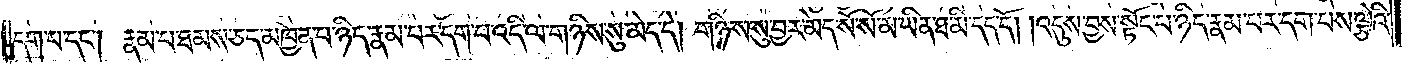དག་པ་དང༌། རྣམ་པ་ཐམས་ཅད་མཁྱེན་པ་ཉིད་རྣམ་པར་དག་པ་འདི་ལ་གཉིས་སུ་མེད་དེ། གཉིས་སུ་བྱར་མེད་སོ་སོ་མ་ཡིན་ཐ་མི་དད་དོ། །འདུས་བྱས་སྟོང་པ་ཉིད་རྣམ་པར་དག་པས་ལྕེའི་
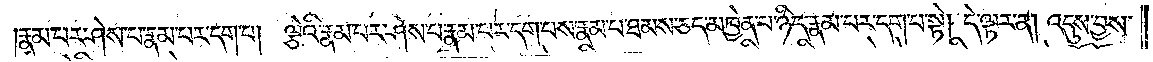རྣམ་པར་ཤེས་པ་རྣམ་པར་དག་པ། ལྕེའི་རྣམ་པར་ཤེས་པ་རྣམ་པར་དག་པས་རྣམ་པ་ཐམས་ཅད་མཁྱེན་པ་ཉིད་རྣམ་པར་དག་པ་སྟེ། དེ་ལྟར་ན། འདུས་བྱས་
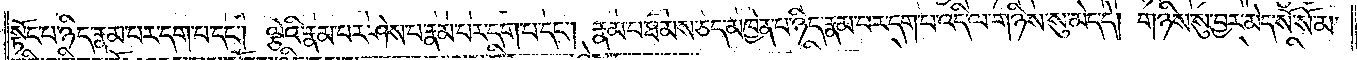སྟོང་པ་ཉིད་རྣམ་པར་དག་པ་དང༌། ལྕེའི་རྣམ་པར་ཤེས་པ་རྣམ་པར་དག་པ་དང༌། རྣམ་པ་ཐམས་ཅད་མཁྱེན་པ་ཉིད་རྣམ་པར་དག་པ་འདི་ལ་གཉིས་སུ་མེད་དེ། གཉིས་སུ་བྱར་མེད་སོ་སོ་མ་
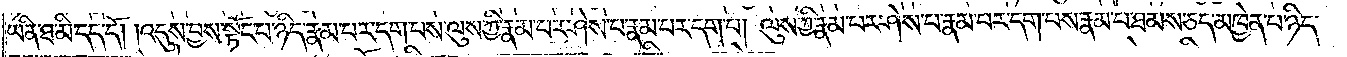ཡིན་ཐ་མི་དད་དོ། །འདུས་བྱས་སྟོང་པ་ཉིད་རྣམ་པར་དག་པས་ལུས་ཀྱི་རྣམ་པར་ཤེས་པ་རྣམ་པར་དག་པ་ལ། ལུས་ཀྱི་རྣམ་པར་ཤེས་པ་རྣམ་པར་དག་པས་རྣམ་པ་ཐམས་ཅད་མཁྱེན་པ་ཉིད་
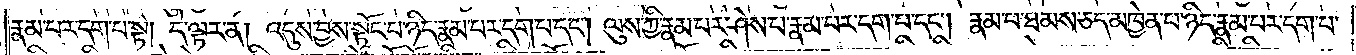རྣམ་པར་དག་པ་སྟེ། དེ་ལྟར་ན། འདུས་བྱས་སྟོང་པ་ཉིད་རྣམ་པར་དག་པ་དང༌། ལུས་ཀྱི་རྣམ་པར་ཤེས་པ་རྣམ་པར་དག་པ་དང༌། རྣམ་པ་ཐམས་ཅད་མཁྱེན་པ་ཉིད་རྣམ་པར་དག་པ་
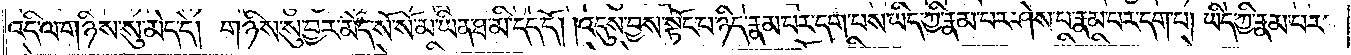འདི་ལ་གཉིས་སུ་མེད་དེ། གཉིས་སུ་བྱར་མེད་སོ་སོ་མ་ཡིན་ཐ་མི་དད་དོ། །འདུས་བྱས་སྟོང་པ་ཉིད་རྣམ་པར་དག་པས་ཡིད་ཀྱི་རྣམ་པར་ཤེས་པ་རྣམ་པར་དག་པ། ཡིད་ཀྱི་རྣམ་པར་
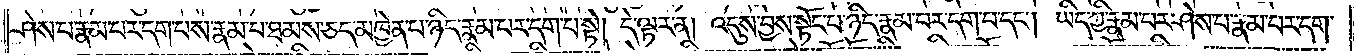ཤེས་པ་རྣམ་པར་དག་པས་རྣམ་པ་ཐམས་ཅད་མཁྱེན་པ་ཉིད་རྣམ་པར་དག་པ་སྟེ། དེ་ལྟར་ན། འདུས་བྱས་སྟོང་པ་ཉིད་རྣམ་པར་དག་པ་དང༌། ཡིད་ཀྱི་རྣམ་པར་ཤེས་པ་རྣམ་པར་དག་
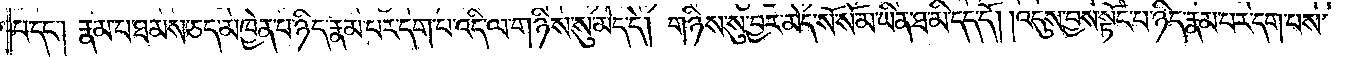པ་དང༌། རྣམ་པ་ཐམས་ཅད་མཁྱེན་པ་ཉིད་རྣམ་པར་དག་པ་འདི་ལ་གཉིས་སུ་མེད་དེ། གཉིས་སུ་བྱར་མེད་སོ་སོ་མ་ཡིན་ཐ་མི་དད་དོ། །འདུས་བྱས་སྟོང་པ་ཉིད་རྣམ་པར་དག་པས་
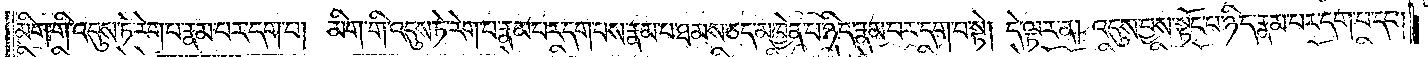མིག་གི་འདུས་ཏེ་རེག་པ་རྣམ་པར་དག་པ། མིག་གི་འདུས་ཏེ་རེག་པ་རྣམ་པར་དག་པས་རྣམ་པ་ཐམས་ཅད་མཁྱེན་པ་ཉིད་རྣམ་པར་དག་པ་སྟེ། དེ་ལྟར་ན། འདུས་བྱས་སྟོང་པ་ཉིད་རྣམ་པར་དག་པ་དང༌།
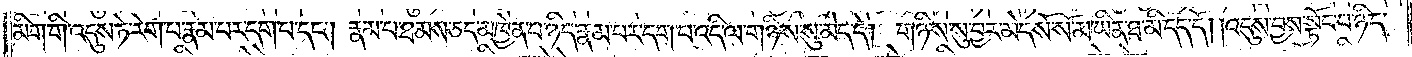མིག་གི་འདུས་ཏེ་རེག་པ་རྣམ་པར་དག་པ་དང༌། རྣམ་པ་ཐམས་ཅད་མཁྱེན་པ་ཉིད་རྣམ་པར་དག་པ་འདི་ལ་གཉིས་སུ་མེད་དེ། གཉིས་སུ་བྱར་མེད་སོ་སོ་མ་ཡིན་ཐ་མི་དད་དོ། །འདུས་བྱས་སྟོང་པ་ཉིད་
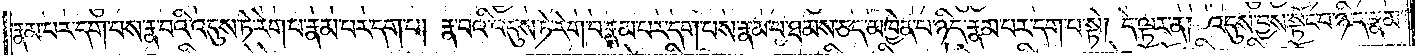རྣམ་པར་དག་པས་རྣ་བའི་འདུས་ཏེ་རེག་པ་རྣམ་པར་དག་པ། རྣ་བའི་འདུས་ཏེ་རེག་པ་རྣམ་པར་དག་པས་རྣམ་པ་ཐམས་ཅད་མཁྱེན་པ་ཉིད་རྣམ་པར་དག་པ་སྟེ། དེ་ལྟར་ན། འདུས་བྱས་སྟོང་པ་ཉིད་རྣམ་
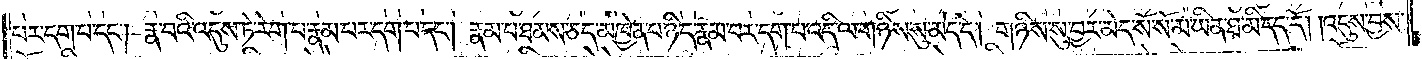པར་དག་པ་དང༌། རྣ་བའི་འདུས་ཏེ་རེག་པ་རྣམ་པར་དག་པ་དང༌། རྣམ་པ་ཐམས་ཅད་མཁྱེན་པ་ཉིད་རྣམ་པར་དག་པ་འདི་ལ་གཉིས་སུ་མེད་དེ། གཉིས་སུ་བྱར་མེད་སོ་སོ་མ་ཡིན་ཐ་མི་དད་དོ། །འདུས་བྱས་
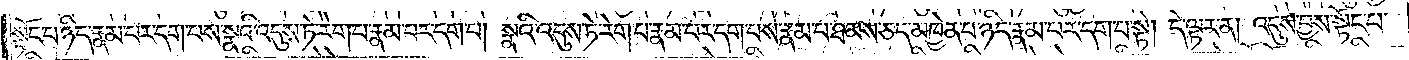སྟོང་པ་ཉིད་རྣམ་པར་དག་པས་སྣའི་འདུས་ཏེ་རེག་པ་རྣམ་པར་དག་པ། སྣའི་འདུས་ཏེ་རེག་པ་རྣམ་པར་དག་པས་རྣམ་པ་ཐམས་ཅད་མཁྱེན་པ་ཉིད་རྣམ་པར་དག་པ་སྟེ། དེ་ལྟར་ན། འདུས་བྱས་སྟོང་པ་
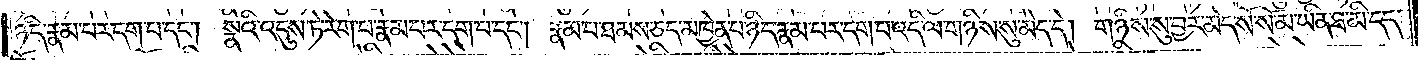ཉིད་རྣམ་པར་དག་པ་དང༌། སྣའི་འདུས་ཏེ་རེག་པ་རྣམ་པར་དག་པ་དང༌། རྣམ་པ་ཐམས་ཅད་མཁྱེན་པ་ཉིད་རྣམ་པར་དག་པ་འདི་ལ་གཉིས་སུ་མེད་དེ། གཉིས་སུ་བྱར་མེད་སོ་སོ་མ་ཡིན་ཐ་མི་དད་
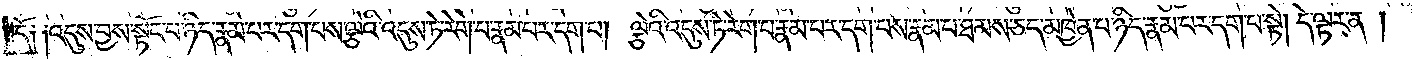དོ༑ ༑འདུས་བྱས་སྟོང་པ་ཉིད་རྣམ་པར་དག་པས་ལྕེའི་འདུས་ཏེ་རེག་པ་རྣམ་པར་དག་པ། ལྕེའི་འདུས་ཏེ་རེག་པ་རྣམ་པར་དག་པས་རྣམ་པ་ཐམས་ཅད་མཁྱེན་པ་ཉིད་རྣམ་པར་དག་པ་སྟེ། དེ་ལྟར་ན།
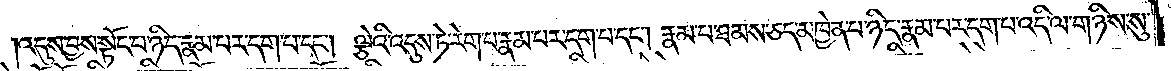འདུས་བྱས་སྟོང་པ་ཉིད་རྣམ་པར་དག་པ་དང༌། ལྕེའི་འདུས་ཏེ་རེག་པ་རྣམ་པར་དག་པ་དང༌། རྣམ་པ་ཐམས་ཅད་མཁྱེན་པ་ཉིད་རྣམ་པར་དག་པ་འདི་ལ་གཉིས་སུ་
